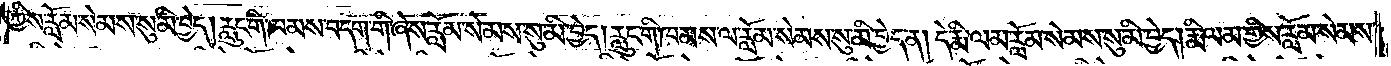ཀྱིས་རློམ་སེམས་སུ་མི་བྱེད། རླུང་གི་ཁམས་བདག་གི་ཞེས་རློམ་སེམས་སུ་མི་བྱེད། རླུང་གི་ཁམས་ལ་རློམ་སེམས་སུ་མི་བྱེད་ན། དེ་རྨི་ལམ་རློམ་སེམས་སུ་མི་བྱེད། རྨི་ལམ་གྱིས་རློམ་སེམས་
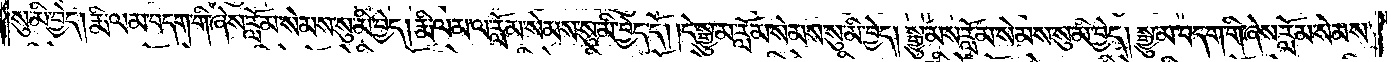སུ་མི་བྱེད། རྨི་ལམ་བདག་གི་ཞེས་རློམ་སེམས་སུ་མི་བྱེད། རྨི་ལམ་ལ་རློམ་སེམས་སུ་མི་བྱེད་དོ། །དེ་སྒྱུ་མ་རློམ་སེམས་སུ་མི་བྱེད། སྒྱུ་མས་རློམ་སེམས་སུ་མི་བྱེད། སྒྱུ་མ་བདག་གི་ཞེས་རློམ་སེམས་
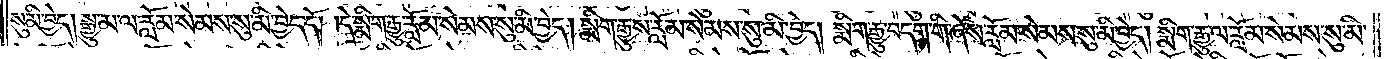སུ་མི་བྱེད། སྒྱུ་མ་ལ་རློམ་སེམས་སུ་མི་བྱེད་དོ། །དེ་སྨིག་རྒྱུ་རློམ་སེམས་སུ་མི་བྱེད། སྨིག་རྒྱུས་རློམ་སེམས་སུ་མི་བྱེད། སྨིག་རྒྱུ་བདག་གི་ཞེས་རློམ་སེམས་སུ་མི་བྱེད། སྨིག་རྒྱུ་ལ་རློམ་སེམས་སུ་མི་
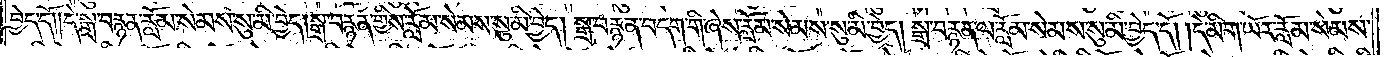བྱེད་དོ། །དེ་སྒྲ་བརྙན་རློམ་སེམས་སུ་མི་བྱེད། སྒྲ་བརྙན་གྱིས་རློམ་སེམས་སུ་མི་བྱེད། སྒྲ་བརྙན་བདག་གི་ཞེས་རློམ་སེམས་སུ་མི་བྱེད། སྒྲ་བརྙན་ལ་རློམ་སེམས་སུ་མི་བྱེད་དོ། །དེ་མིག་ཡོར་རློམ་སེམས་
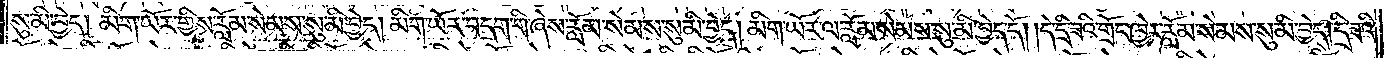སུ་མི་བྱེད། མིག་ཡོར་གྱིས་རློམ་སེམས་སུ་མི་བྱེད། མིག་ཡོར་བདག་གི་ཞེས་རློམ་སེམས་སུ་མི་བྱེད། མིག་ཡོར་ལ་རློམ་སེམས་སུ་མི་བྱེད་དོ། །དེ་དྲི་ཟའི་གྲོང་ཁྱེར་རློམ་སེམས་སུ་མི་བྱེད། དྲི་ཟའི་
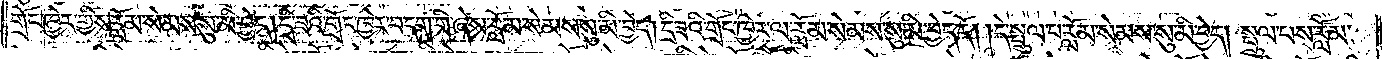གྲོང་ཁྱེར་གྱིས་རློམ་སེམས་སུ་མི་བྱེད། དྲི་ཟའི་གྲོང་ཁྱེར་བདག་གི་ཞེས་རློམ་སེམས་སུ་མི་བྱེད། དྲི་ཟའི་གྲོང་ཁྱེར་ལ་རློམ་སེམས་སུ་མི་བྱེད་དོ། །དེ་སྤྲུལ་པ་རློམ་སེམས་སུ་མི་བྱེད། སྤྲུལ་པས་རློམ་
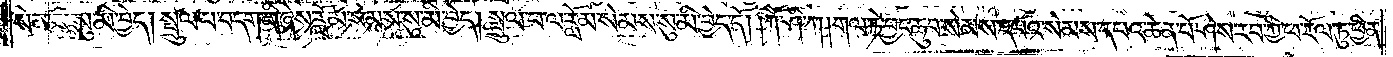སེམས་སུ་མི་བྱེད། སྤྲུལ་པ་བདག་གི་ཞེས་རློམ་སེམས་སུ་མི་བྱེད། སྤྲུལ་པ་ལ་རློམ་སེམས་སུ་མི་བྱེད་དོ། །ཀཽ་ཤི་ཀ། གལ་ཏེ་བྱང་ཆུབ་སེམས་དཔའ་སེམས་དཔའ་ཆེན་པོ་ཤེས་རབ་ཀྱི་ཕ་རོལ་ཏུ་ཕྱིན་
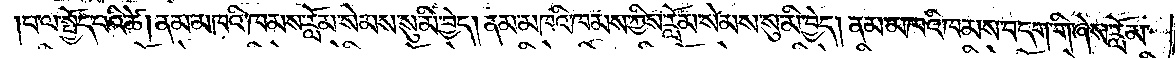པ་ལ་སྤྱོད་པའི་ཚེ། ནམ་མཁའི་ཁམས་རློམ་སེམས་སུ་མི་བྱེད། ནམ་མཁའི་ཁམས་ཀྱིས་རློམ་སེམས་སུ་མི་བྱེད། ནམ་མཁའི་ཁམས་བདག་གི་ཞེས་རློམ་
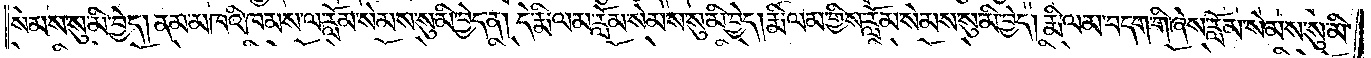སེམས་སུ་མི་བྱེད། ནམ་མཁའི་ཁམས་ལ་རློམ་སེམས་སུ་མི་བྱེད་ན། དེ་རྨི་ལམ་རློམ་སེམས་སུ་མི་བྱེད། རྨི་ལམ་གྱིས་རློམ་སེམས་སུ་མི་བྱེད། རྨི་ལམ་བདག་གི་ཞེས་རློམ་སེམས་སུ་མི་
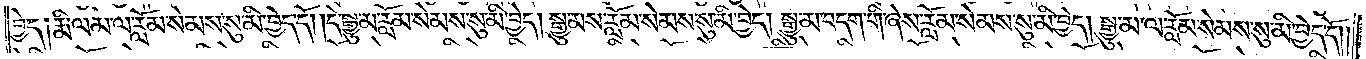བྱེད༑ རྨི་ལམ་ལ་རློམ་སེམས་སུ་མི་བྱེད་དོ། །དེ་སྒྱུ་མ་རློམ་སེམས་སུ་མི་བྱེད། སྒྱུ་མས་རློམ་སེམས་སུ་མི་བྱེད། སྒྱུ་མ་བདག་གི་ཞེས་རློམ་སེམས་སུ་མི་བྱེད། སྒྱུ་མ་ལ་རློམ་སེམས་སུ་མི་བྱེད་དོ། །
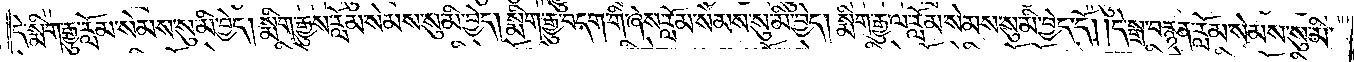དེ་སྨིག་རྒྱུ་རློམ་སེམས་སུ་མི་བྱེད། སྨིག་རྒྱུས་རློམ་སེམས་སུ་མི་བྱེད། སྨིག་རྒྱུ་བདག་གི་ཞེས་རློམ་སེམས་སུ་མི་བྱེད། སྨིག་རྒྱུ་ལ་རློམ་སེམས་སུ་མི་བྱེད་དོ། །དེ་སྒྲ་བརྙན་རློམ་སེམས་སུ་མི་
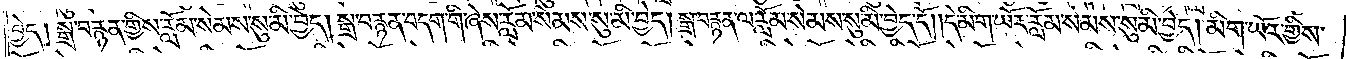བྱེད། སྒྲ་བརྙན་གྱིས་རློམ་སེམས་སུ་མི་བྱེད། སྒྲ་བརྙན་བདག་གི་ཞེས་རློམ་སེམས་སུ་མི་བྱེད། སྒྲ་བརྙན་ལ་རློམ་སེམས་སུ་མི་བྱེད་དོ། །དེ་མིག་ཡོར་རློམ་སེམས་སུ་མི་བྱེད། མིག་ཡོར་གྱིས་
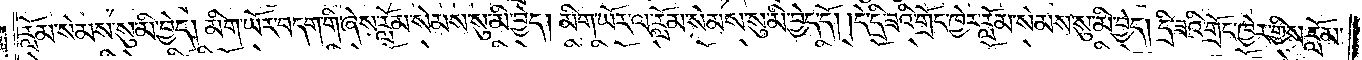རློམ་སེམས་སུ་མི་བྱེད། མིག་ཡོར་བདག་གི་ཞེས་རློམ་སེམས་སུ་མི་བྱེད། མིག་ཡོར་ལ་རློམ་སེམས་སུ་མི་བྱེད་དོ། །དེ་དྲི་ཟའི་གྲོང་ཁྱེར་རློམ་སེམས་སུ་མི་བྱེད། དྲི་ཟའི་གྲོང་ཁྱེར་གྱིས་རློམ་
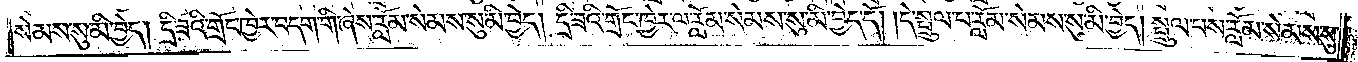སེམས་སུ་མི་བྱེད། དྲི་ཟའི་གྲོང་ཁྱེར་བདག་གི་ཞེས་རློམ་སེམས་སུ་མི་བྱེད། དྲི་ཟའི་གྲོང་ཁྱེར་ལ་རློམ་སེམས་སུ་མི་བྱེད་དོ། །དེ་སྤྲུལ་པ་རློམ་སེམས་སུ་མི་བྱེད། སྤྲུལ་པས་རློམ་སེམས་སུ་
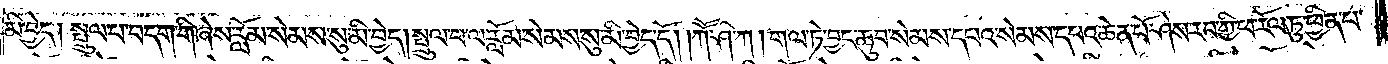མི་བྱེད། སྤྲུལ་པ་བདག་གི་ཞེས་རློམ་སེམས་སུ་མི་བྱེད། སྤྲུལ་པ་ལ་རློམ་སེམས་སུ་མི་བྱེད་དོ། །ཀཽ་ཤི་ཀ། གལ་ཏེ་བྱང་ཆུབ་སེམས་དཔའ་སེམས་དཔའ་ཆེན་པོ་ཤེས་རབ་ཀྱི་ཕ་རོལ་ཏུ་ཕྱིན་པ་
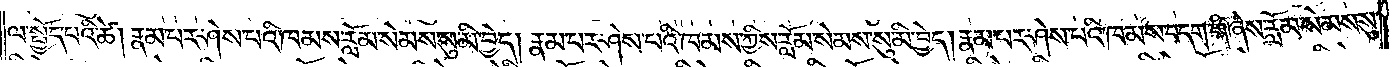ལ་སྤྱོད་པའི་ཚེ། རྣམ་པར་ཤེས་པའི་ཁམས་རློམ་སེམས་སུ་མི་བྱེད། རྣམ་པར་ཤེས་པའི་ཁམས་ཀྱིས་རློམ་སེམས་སུ་མི་བྱེད། རྣམ་པར་ཤེས་པའི་ཁམས་བདག་དི་ཞེས་རློམ་སེམས་སུ་
